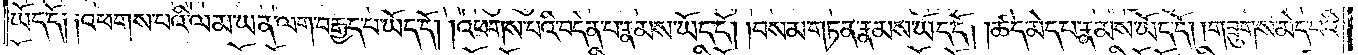ཡོད་དོ༑ ༑འཕགས་པའི་ལམ་ཡན་ལག་བརྒྱད་པ་ཡོད་དོ། །འཕགས་པའི་བདེན་པ་རྣམས་ཡོད་དོ། །བསམ་གཏན་རྣམས་ཡོད་དོ། །ཚད་མེད་པ་རྣམས་ཡོད་དོ། །གཟུགས་མེད་པའི་
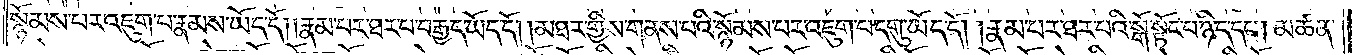སྙོམས་པར་འཇུག་པ་རྣམས་ཡོད་དོ། །རྣམ་པར་ཐར་པ་བརྒྱད་ཡོད་དོ། །མཐར་གྱིས་གནས་པའི་སྙོམས་པར་འཇུག་པ་དགུ་ཡོད་དོ། །རྣམ་པར་ཐར་པའི་སྒོ་སྟོང་པ་ཉིད་དང༌། མཚན་
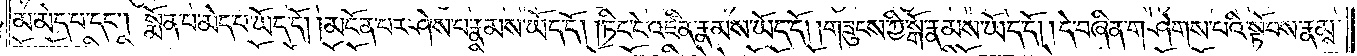མ་མེད་པ་དང༌། སྨོན་པ་མེད་པ་ཡོད་དོ། །མངོན་པར་ཤེས་པ་རྣམས་ཡོད་དོ། ཏིང་ངེ་འཛིན་རྣམས་ཡོད་དོ། །གཟུངས་ཀྱི་སྒོ་རྣམས་ཡོད་དོ། །དེ་བཞིན་གཤེགས་པའི་སྟོབས་རྣམས་
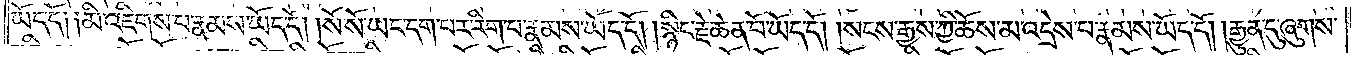ཡོད་དོ༑ ༑མི་འཇིགས་པ་རྣམས་ཡོད་དོ། །སོ་སོ་ཡང་དག་པར་རིག་པ་རྣམས་ཡོད་དོ། །སྙིང་རྗེ་ཆེན་པོ་ཡོད་དོ། །སངས་རྒྱས་ཀྱི་ཆོས་མ་འདྲེས་པ་རྣམས་ཡོད་དོ། །རྒྱུན་དུ་ཞུགས་
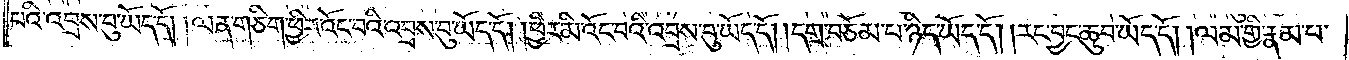པའི་འབྲས་བུ་ཡོད་དོ། །ལན་གཅིག་ཕྱིར་འོང་བའི་འབྲས་བུ་ཡོད་དོ། །ཕྱིར་མི་འོང་བའི་འབྲས་བུ་ཡོད་དོ། །དགྲ་བཅོམ་པ་ཉིད་ཡོད་དོ། །རང་བྱང་ཆུབ་ཡོད་དོ། །ལམ་གྱི་རྣམ་པར་
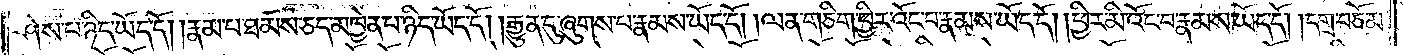ཤེས་པ་ཉིད་ཡོད་དོ། །རྣམ་པ་ཐམས་ཅད་མཁྱེན་པ་ཉིད་ཡོད་དོ། །རྒྱུན་དུ་ཞུགས་པ་རྣམས་ཡོད་དོ། །ལན་གཅིག་ཕྱིར་འོང་བ་རྣམས་ཡོད་དོ། །ཕྱིར་མི་འོང་བ་རྣམས་ཡོད་དོ། །དགྲ་བཅོམ་
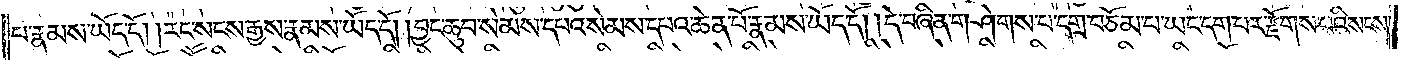པ་རྣམས་ཡོད་དོ། །རང་སངས་རྒྱས་རྣམས་ཡོད་དོ། །བྱང་ཆུབ་སེམས་དཔའ་སེམས་དཔའ་ཆེན་པོ་རྣམས་ཡོད་དོ། །དེ་བཞིན་གཤེགས་པ་དགྲ་བཅོམ་པ་ཡང་དག་པར་རྫོགས་པའི་སངས་
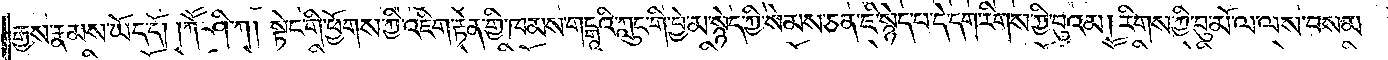རྒྱས་རྣམས་ཡོད་དོ། །ཀཽ་ཤི་ཀ། སྟེང་གི་ཕྱོགས་ཀྱི་འཇིག་རྟེན་གྱི་ཁམས་གངྒཱའི་ཀླུང་གི་བྱེ་མ་སྙེད་ཀྱི་སེམས་ཅན་ཇི་སྙེད་པ་དེ་དག་རིགས་ཀྱི་བུའམ། རིགས་ཀྱི་བུ་མོ་ལ་ལས་བསམ་
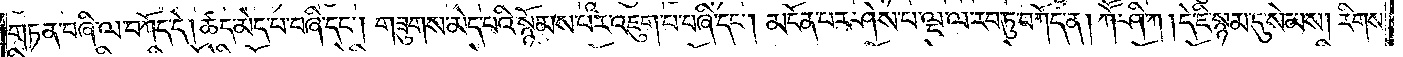གཏན་བཞི་ལ་བཀོད་དེ། ཚད་མེད་པ་བཞི་དང༌། གཟུགས་མེད་པའི་སྙོམས་པར་འཇུག་པ་བཞི་དང༌། མངོན་པར་ཤེས་པ་ལྔ་ལ་རབ་ཏུ་བཀོད་ན། ཀཽ་ཤི་ཀ། དེ་ཇི་སྙམ་དུ་སེམས། རིགས་
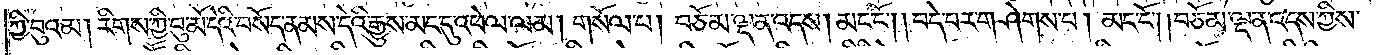ཀྱི་བུའམ། རིགས་ཀྱི་བུ་མོ་དེའི་བསོད་ནམས་དེའི་རྒྱུས་མང་དུ་འཕེལ་ལམ། གསོལ་པ། བཅོམ་ལྡན་འདས། མང་ངོ༌། །བདེ་བར་གཤེགས་པ། མང་ངོ༌། །བཅོམ་ལྡན་འདས་ཀྱིས་
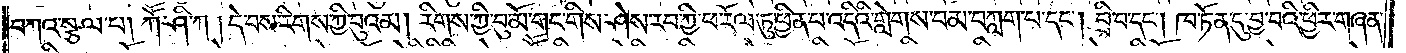བཀའ་སྩལ་པ། ཀཽ་ཤི་ཀ། དེ་བས་རིགས་ཀྱི་བུའམ། རིགས་ཀྱི་བུ་མོ་གང་གིས་ཤེས་རབ་ཀྱི་ཕ་རོལ་ཏུ་ཕྱིན་པ་འདིའི་གླེགས་བམ་བཀླག་པ་དང༌། བྲི་བ་དང༌། ཁ་ཏོན་དུ་བྱ་བའི་ཕྱིར་གཞན་
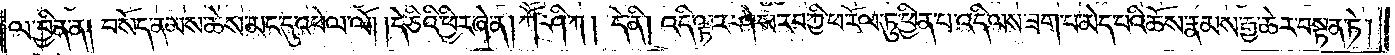ལ་བྱིན་ན། བསོད་ནམས་ཆེས་མང་དུ་འཕེལ་ལོ། །དེ་ཅིའི་ཕྱིར་ཞེ་ན། ཀཽ་ཤི་ཀ། དེ་ནི། འདི་ལྟར་ཤེས་རབ་ཀྱི་ཕ་རོལ་ཏུ་ཕྱིན་པ་འདི་ལས་ཟག་པ་མེད་པའི་ཆོས་རྣམས་རྒྱ་ཆེར་བསྟན་ཏེ།
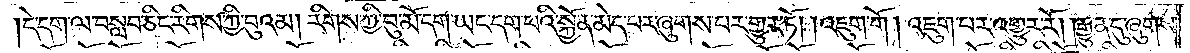དེ་དག་ལ་བསླབ་ཅིང་རིགས་ཀྱི་བུའམ། རིགས་ཀྱི་བུ་མོ་དག་ཡང་དག་པའི་སྐྱོན་མེད་པར་ཞུགས་པར་གྱུར་ཏོ། །འཇུག་གོ། འཇུག་པར་འགྱུར་རོ། །རྒྱུན་དུ་ཞུགས་
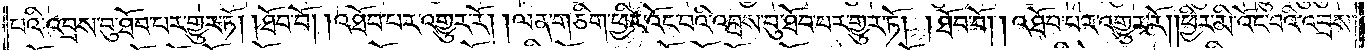པའི་འབྲས་བུ་ཐོབ་པར་གྱུར་ཏོ། །ཐོབ་བོ། །འཐོབ་པར་འགྱུར་རོ། །ལན་ཅིག་ཕྱིར་འོང་བའི་འབྲས་བུ་ཐོབ་པར་གྱུར་ཏོ། །ཐོབ་བོ། །འཐོབ་པར་འགྱུར་རོ། །ཕྱིར་མི་འོང་བའི་འབྲས་
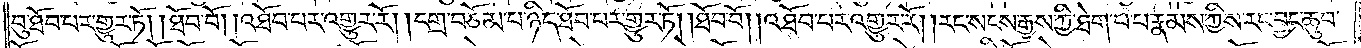བུ་ཐོབ་པར་གྱུར་ཏོ། །ཐོབ་བོ། །འཐོབ་པར་འགྱུར་རོ། །དགྲ་བཅོམ་པ་ཉིད་ཐོབ་པར་གྱུར་ཏོ། །ཐོབ་བོ། །འཐོབ་པར་འགྱུར་རོ། །རང་སངས་རྒྱས་ཀྱི་ཐེག་པ་པ་རྣམས་ཀྱིས་རང་བྱང་ཆུབ་
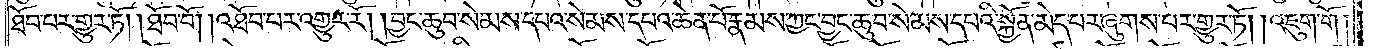ཐོབ་པར་གྱུར་ཏོ། །ཐོབ་བོ། །འཐོབ་པར་འགྱུར་རོ། །བྱང་ཆུབ་སེམས་དཔའ་སེམས་དཔའ་ཆེན་པོ་རྣམས་ཀྱང་བྱང་ཆུབ་སེམས་དཔའི་སྐྱོན་མེད་པར་ཞུགས་པར་གྱུར་ཏོ། །འཇུག་གོ །
